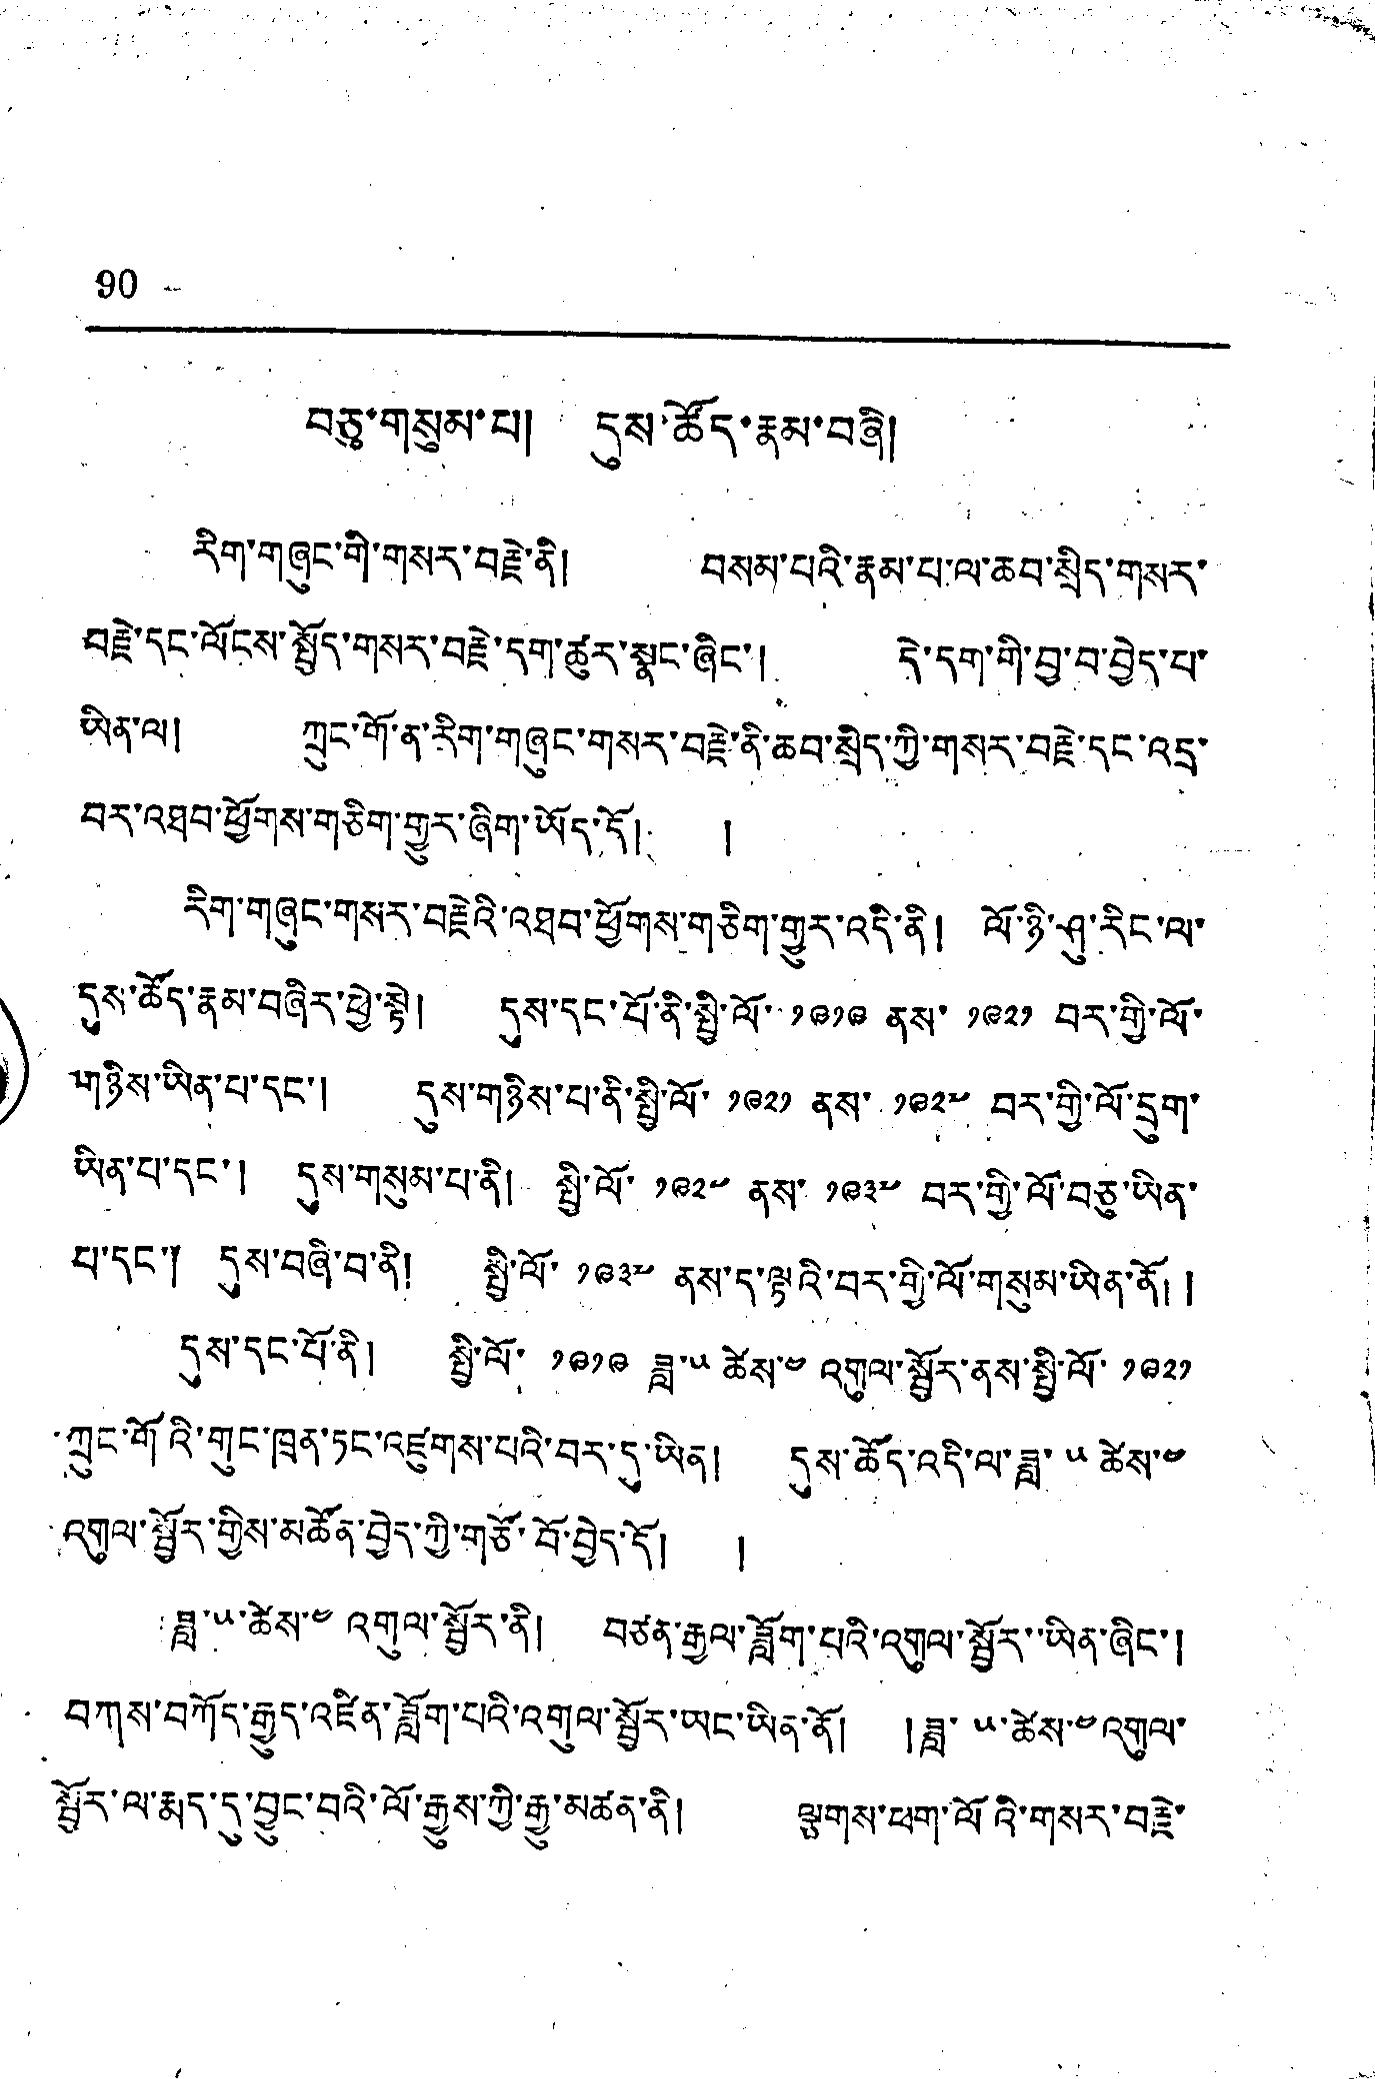90
བཅུ་གསུམ་པ། དུས་ཚོད་རྣམ་བཞི།
རིག་གཞུང་གི་གསར་བརྗེ་ནི། བསམ་པའི་རྣམ་པ་ལ་ཆབ་སྲིད་གསར་
བརྗེ་དང་ལོངས་སྤྱོད་གསར་བརྗེ་དགུ་ཚུར་སྣང་ཞིང་། དེ་དག་གི་བྱ་བ་བྱེད་པ་
ཡིན་ལ། ཀྲུང་གོ་ན་རིག་གཞུང་གསར་བརྗེ་ནི་ཆབ་སྲིད་ཀྱི་གསར་བརྗེ་དང་འདྲ་
བར་འཐབ་ཕྱོགས་གཅིག་གྱུར་ཞིག་ཡོད་དོ། །
རིག་གཞུང་གསར་བརྗེའི་འཐབ་ཕྱོགས་གཅིག་གྱུར་འདི་ནི། ལོ་ཉི་ཤུ་རིང་ལ་
དུས་ཚོད་རྣམ་བཞིར་ཕྱེ་སྟེ། དུས་དང་པོ་ནི་སྤྱི་ལོ་ ༡༩༡༩ ནས་ ༡༩༢༡ བར་གྱི་ལོ་
གཉིས་ཡིན་པ་དང་། དུས་གཉིས་པ་ནི་སྤྱི་ལོ་ ༡༩༢༡ ནས་ ༡༩༢༧ བར་གྱི་ལོ་དྲུག་
ཡིན་པ་དང་། དུས་གསུམ་པ་ནི། སྤྱི་ལོ་ ༡༩༢༧ ནས་ ༡༩༣༧ བར་གྱི་ལོ་བཅུ་ཡིན་
པ་དང་༐ དུས་བཞི་བ་ནི། སྤྱི་ལོ་ ༡༩༣༧ ནས་ད་ལྟའི་བར་གྱི་ལོ་གསུམ་ཡིན་ནོ། །
དུས་དང་པོ་ནི། སྤྱི་ལོ་ ༡༩༡༩ ཟླ་༥ ཚེས་༤ འགུལ་སྦྱོར་ནས་སྤྱི་ལོ་ ༡༩༢༡
ཀྲུང་གོའི་གུང་ཁྲན་ཏང་འཛུགས་པའི་བར་དུ་ཡིན། དུས་ཚོད་འདི་ལ་ཟླ་༥ ཚེས་༤
འགུལ་སྦྱོར་གྱིས་མཚོན་བྱེད་ཀྱི་གཙོ་བོ་བྱེད་དོ། །
ཟླ་༥་ཚེས་༤ འགུལ་སྦྱོར་ནི། བཙན་རྒྱལ་ཟློག་པའི་འགུལ་སྦྱོར་ཡིན་ཞིང་།
བཀས་བཀོད་རྒྱུད་འཛིན་ཟློག་པའི་འགུལ་སྦྱོར་ཡང་ཡིན་ནོ། །ཟླ་ ༥་ཚེས་༤ འགུལ་
སྦྱོར་ལ་རྨད་དུ་བྱུང་བའི་ལོ་རྒྱུས་ཀྱི་རྒྱུ་མཚན་ནི། ལྕགས་ཕག་ལོའི་གསར་བརྗེ་
